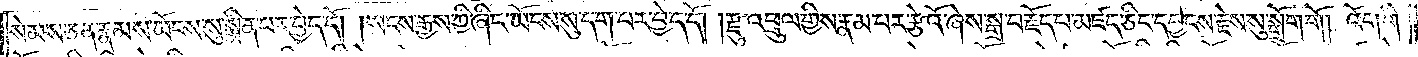སེམས་ཅན་རྣམས་ཡོངས་སུ་སྨིན་པར་བྱེད་དོ། །སངས་རྒྱས་ཀྱི་ཞིང་ཡོངས་སུ་དག་པར་བྱེད་དོ། །རྫུ་འཕྲུལ་གྱིས་རྣམ་པར་རྩེའོ་ཞེས་སྒྲ་བརྗོད་པ་མཛད་ཅིང་དབྱངས་རྗེས་སུ་སྒྲོག་གོ །འོག་གི་
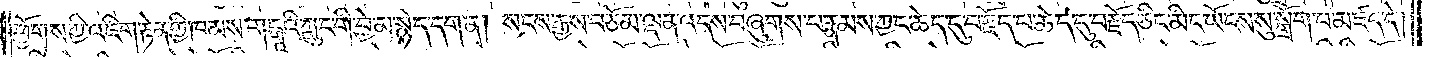ཕྱོགས་ཀྱི་འཇིག་རྟེན་གྱི་ཁམས་གངྒཱའི་ཀླུང་གི་བྱེ་མ་སྙེད་དག་ན། སངས་རྒྱས་བཅོམ་ལྡན་འདས་བཞུགས་པ་རྣམས་ཀྱང་ཆེད་དུ་བརྗོད་པ་ཆེད་དུ་བརྗོད་ཅིང་མིང་ཡོངས་སུ་སྒྲོག་པ་མཛད་དེ།
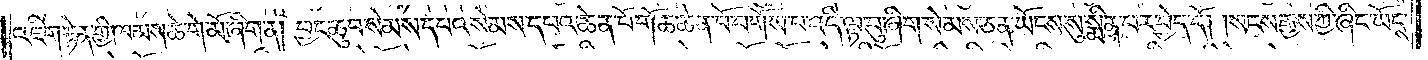འཇིག་རྟེན་གྱི་ཁམས་ཆེ་གེ་མོ་ཞིག་ན། བྱང་ཆུབ་སེམས་དཔའ་སེམས་དཔའ་ཆེན་པོ་གོ་ཆ་ཆེན་པོ་བགོས་པ་འདི་ལྟ་བུ་ཞིག་སེམས་ཅན་ཡོངས་སུ་སྨིན་པར་བྱེད་དོ། །སངས་རྒྱས་ཀྱི་ཞིང་ཡོངས་
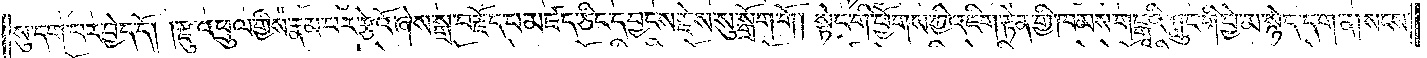སུ་དག་པར་བྱེད་དོ། །རྫུ་འཕྲུལ་གྱིས་རྣམ་པར་རྩེའོ་ཞེས་སྒྲ་བརྗོད་པ་མཛད་ཅིང་དབྱངས་རྗེས་སུ་སྒྲོག་གོ །སྟེང་གི་ཕྱོགས་ཀྱི་འཇིག་རྟེན་གྱི་ཁམས་གངྒཱའི་ཀླུང་གི་བྱེ་མ་སྙེད་དག་ན། སངས་
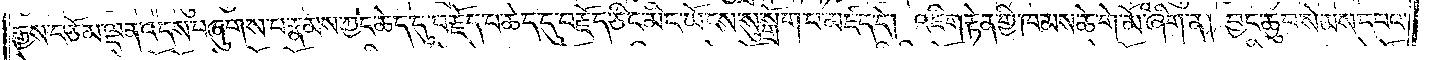རྒྱས་བཅོམ་ལྡན་འདས་བཞུགས་པ་རྣམས་ཀྱང་ཆེད་དུ་བརྗོད་པ་ཆེད་དུ་བརྗོད་ཅིང་མིང་ཡོངས་སུ་སྒྲོག་པ་མཛད་དེ། འཇིག་རྟེན་གྱི་ཁམས་ཆེ་གེ་མོ་ཞིག་ན། བྱང་ཆུབ་སེམས་དཔའ་
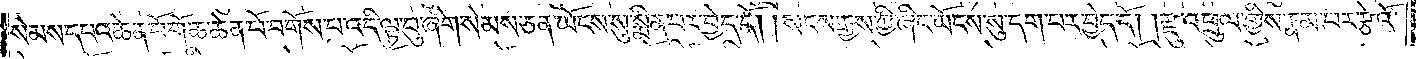སེམས་དཔའ་ཆེན་པོ་གོ་ཆ་ཆེན་པོ་བགོས་པ་འདི་ལྟ་བུ་ཞིག་སེམས་ཅན་ཡོངས་སུ་སྨིན་པར་བྱེད་དོ། །སངས་རྒྱས་ཀྱི་ཞིང་ཡོངས་སུ་དག་པར་བྱེད་དོ། །རྫུ་འཕྲུལ་གྱིས་རྣམ་པར་རྩེའོ་
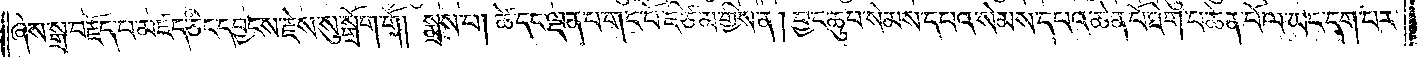ཞེས་སྒྲ་བརྗོད་པ་མཛད་ཅིང་དབྱངས་རྗེས་སུ་སྒྲོག་གོ །སྨྲས་པ། ཚེ་དང་ལྡན་པ་གང་པོ་ཇི་ཙམ་གྱིས་ན། བྱང་ཆུབ་སེམས་དཔའ་སེམས་དཔའ་ཆེན་པོ་ཐེག་པ་ཆེན་པོ་ལ་ཡང་དག་པར་
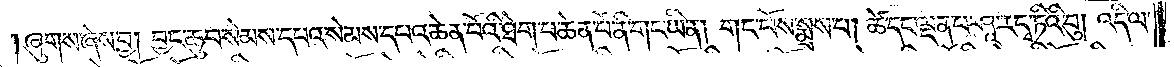ཞུགས་ཞེས་བྱ། བྱང་ཆུབ་སེམས་དཔའ་སེམས་དཔའ་ཆེན་པོའི་ཐེག་པ་ཆེན་པོ་ནི་གང་ཡིན། གང་པོས་སྨྲས་པ། ཚེ་དང་ལྡན་པ་ཤཱ་ར་དྭ་ཏིའི་བུ། འདི་ལ་
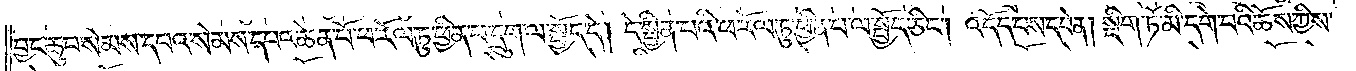བྱང་ཆུབ་སེམས་དཔའ་སེམས་དཔའ་ཆེན་པོ་ཕ་རོལ་ཏུ་ཕྱིན་པ་དྲུག་ལ་སྤྱོད་དེ། དེ་སྦྱིན་པའི་ཕ་རོལ་ཏུ་ཕྱིན་པ་ལ་སྤྱོད་ཅིང༌། འདོད་པས་དབེན། སྡིག་ཏོ་མི་དགེ་བའི་ཆོས་ཀྱིས་
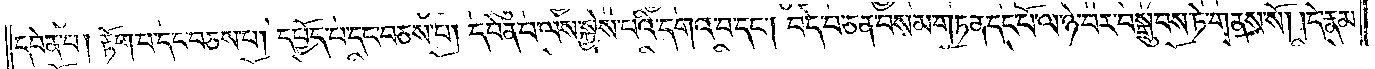དབེན་པ། རྟོག་པ་དང་བཅས་པ། དཔྱོད་པ་དང་བཅས་པ། དབེན་པ་ལས་སྐྱེས་པའི་དགའ་བ་དང༌། བདེ་བ་ཅན་བསམ་གཏན་དང་པོ་ལ་ཉེ་བར་བསྒྲུབས་ཏེ་གནས་སོ། །དེ་རྣམ་
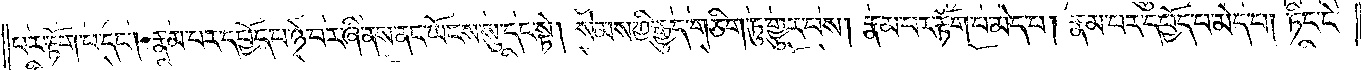པར་རྟོག་པ་དང༌། རྣམ་པར་དཔྱོད་པ་ཉེ་བར་ཞི་ནས་ནང་ཡོངས་སུ་དང་སྟེ། སེམས་ཀྱི་རྒྱུད་གཅིག་ཏུ་གྱུར་པས། རྣམ་པར་རྟོག་པ་མེད་པ། རྣམ་པར་དཔྱོད་པ་མེད་པ། ཏིང་ངེ་
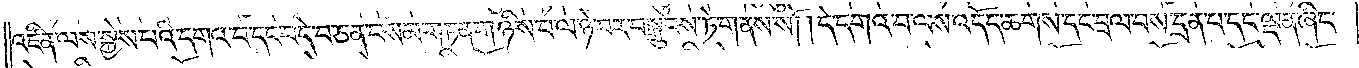འཛིན་ལས་སྐྱེས་པའི་དགའ་བ་དང་བདེ་བ་ཅན་བསམ་གཏན་གཉིས་པ་ལ་ཉེ་བར་བསྒྲུབས་ཏེ་གནས་སོ། །དེ་དགའ་བ་ལས་འདོད་ཆགས་དང་བྲལ་བས་དྲན་པ་དང་ལྡན་ཞིང་
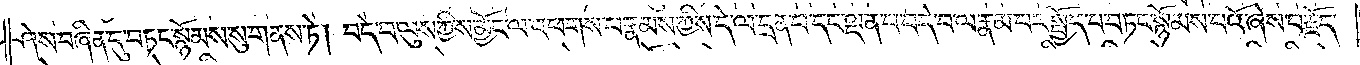ཤེས་བཞིན་དུ་བཏང་སྙོམས་སུ་གནས་ཏེ། བདེ་བ་ལུས་ཀྱིས་མྱོང་ལ་འཕགས་པ་རྣམས་ཀྱིས་དེ་ལ་དྲན་པ་དང་ལྡན་པ་བདེ་བ་ལ་རྣམ་པར་སྤྱོད་པ་བཏང་སྙོམས་པའོ་ཞེས་བརྗོད་
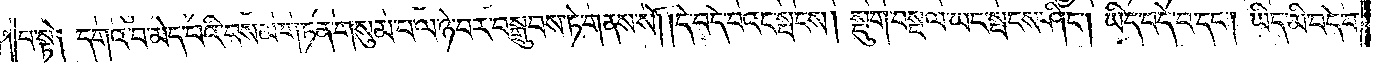པ་སྟེ། དགའ་བ་མེད་པའི་བསམ་གཏན་གསུམ་པ་ལ་ཉེ་བར་བསྒྲུབས་ཏེ་གནས་སོ། །དེ་བདེ་བའང་སྤངས། སྡུག་བསྔལ་ཡང་སྤངས་ཤིང༌། ཡིད་བདེ་བ་དང༌། ཡིད་མི་བདེ་བ་
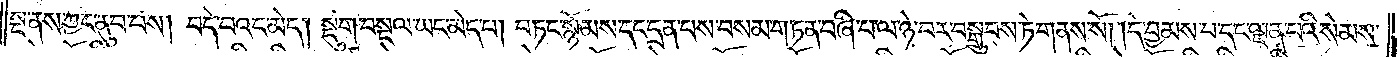སྔ་ནས་ཀྱང་ནུབ་པས། བདེ་བའང་མེད། སྡུག་བསྔལ་ཡང་མེད་པ། བཏང་སྙོམས་དང་དྲན་པས་བསམ་གཏན་བཞི་པ་ལ་ཉེ་བར་བསྒྲུབས་ཏེ་གནས་སོ། །དེ་བྱམས་པ་དང་ལྡན་པའི་སེམས་
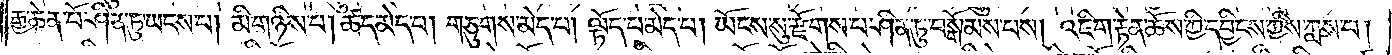རྒྱ་ཆེན་པོ་ཤིན་ཏུ་ཡངས་པ། མི་གཉིས་པ། ཚད་མེད་པ། གཅུགས་མེད་པ། ལྟོད་པ་མེད་པ། ཡོངས་སུ་རྫོགས་པ་ཤིན་ཏུ་བསྒོམས་པས། འཇིག་རྟེན་ཆོས་ཀྱི་དབྱིངས་ཀྱིས་ཀླས་པ།
